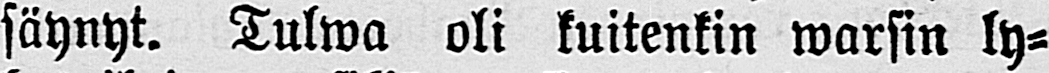säynyt. Tulwa oli kuitenkin warsin ly-
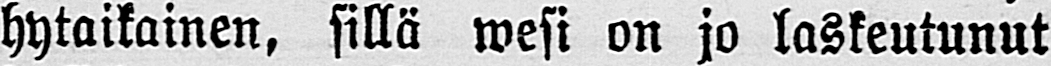hytaikainen, sillä wesi on jo laskeutunut
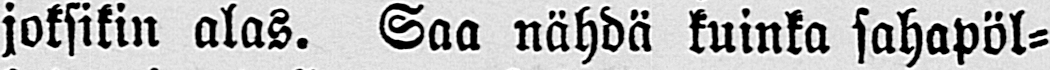joksikin alas. Saa nähdä kuinka sahapöl-
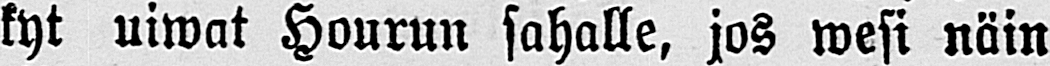kyt uiwat Hourun sahalle, jos wesi näin
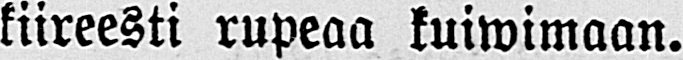kiireesti rupeaa kuiwimaan.
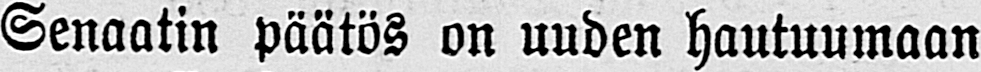Senaatin päätös on uuden hautuumaan
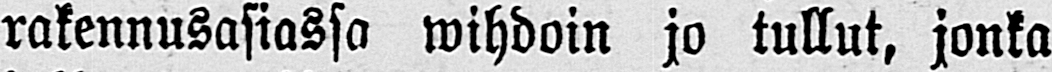rakennusasiassa wihdoin jo tullut, jonka
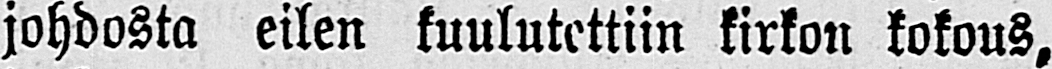johdosta eilen kuulutettiin kirkon kokous,
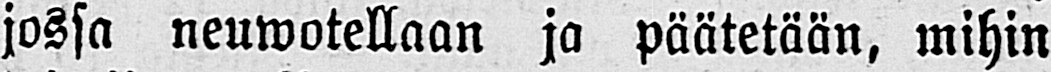jossa neuwotellaan ja päätetään, mihin
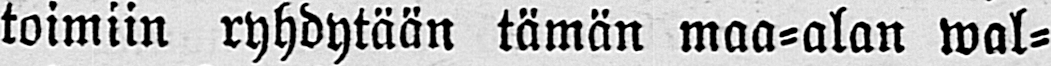toimiin ryhdytään tämän maa-alan wal-
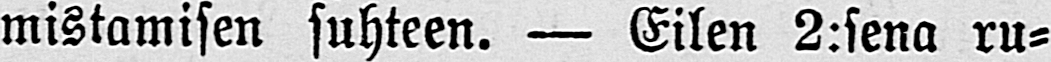mistamisen suhteen. — Eilen 2:sena ru-
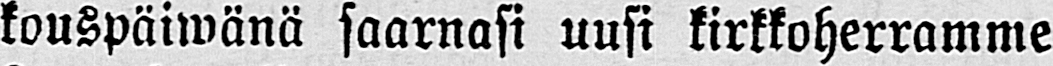kouspäiwänä saarnasi uusi kirkkoherramme
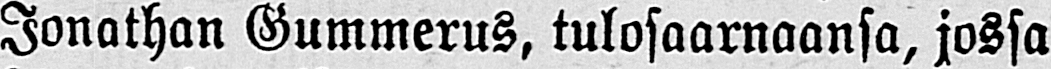Jonathan Gummerus, tulosaarnaansa, jossa
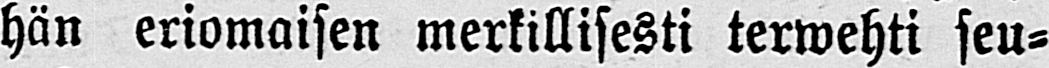hän eriomaisen merkillisesti terwehti seu-
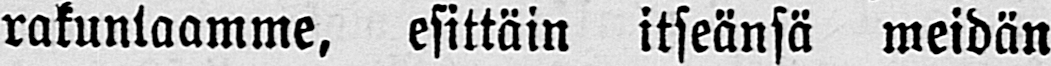rakuntaamme, esittäin itseänsä meidän
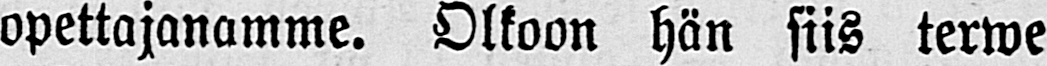opettajanamme. Olkoon hän siis terwe
